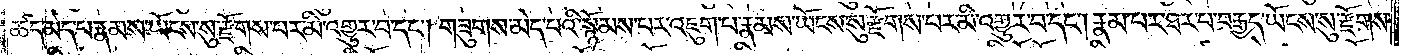ཚད་མེད་པ་རྣམས་ཡོངས་སུ་རྫོགས་པར་མི་འགྱུར་བ་དང༌། གཟུགས་མེད་པའི་སྙོམས་པར་འཇུག་པ་རྣམས་ཡོངས་སུ་རྫོགས་པར་མི་འགྱུར་བ་དང༌། རྣམ་པར་ཐར་པ་བརྒྱད་ཡོངས་སུ་རྫོགས་
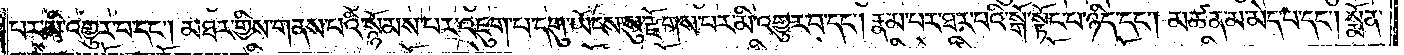པར་མི་འགྱུར་བ་དང༌། མཐར་གྱིས་གནས་པའི་སྙོམས་པར་འཇུག་པ་དགུ་ཡོངས་སུ་རྫོགས་པར་མི་འགྱུར་བ་དང༌། རྣམ་པར་ཐར་པའི་སྒོ་སྟོང་པ་ཉིད་དང༌། མཚན་མ་མེད་པ་དང༌། སྨོན་
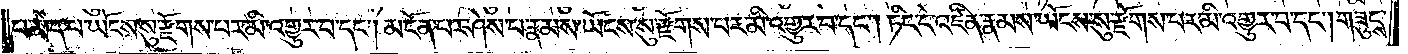པ་མེད་པ་ཡོངས་སུ་རྫོགས་པར་མི་འགྱུར་བ་དང༌། མངོན་པར་ཤེས་པ་རྣམས་ཡོངས་སུ་རྫོགས་པར་མི་འགྱུར་བ་དང༌། ཏིང་ངེ་འཛིན་རྣམས་ཡོངས་སུ་རྫོགས་པར་མི་འགྱུར་བ་དང༌། གཟུངས་
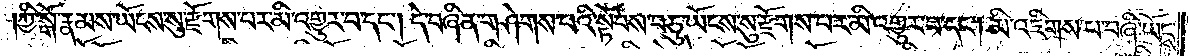ཀྱི་སྒོ་རྣམས་ཡོངས་སུ་རྫོགས་པར་མི་འགྱུར་བ་དང༌། དེ་བཞིན་གཤེགས་པའི་སྟོབས་བཅུ་ཡོངས་སུ་རྫོགས་པར་མི་འགྱུར་བ་དང༌། མི་འཇིགས་པ་བཞི་ཡོངས་
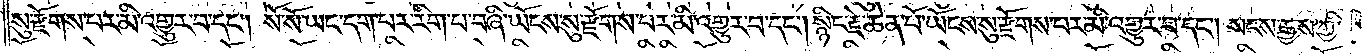སུ་རྫོགས་པར་མི་འགྱུར་བ་དང༌། སོ་སོ་ཡང་དག་པར་རིག་པ་བཞི་ཡོངས་སུ་རྫོགས་པར་མི་འགྱུར་བ་དང༌། སྙིང་རྗེ་ཆེན་པོ་ཡོངས་སུ་རྫོགས་པར་མི་འགྱུར་བ་དང༌། སངས་རྒྱས་ཀྱི་
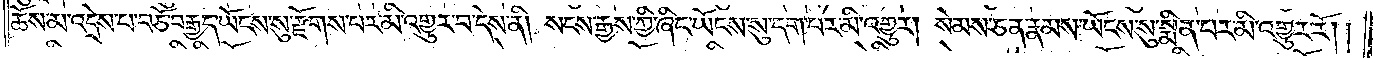ཆོས་མ་འདྲེས་པ་བཅོ་བརྒྱད་ཡོངས་སུ་རྫོགས་པར་མི་འགྱུར་བ་དེས་ནི། སངས་རྒྱས་ཀྱི་ཞིང་ཡོངས་སུ་དག་པར་མི་འགྱུར། སེམས་ཅན་རྣམས་ཡོངས་སུ་སྨིན་པར་མི་འགྱུར་རོ། །
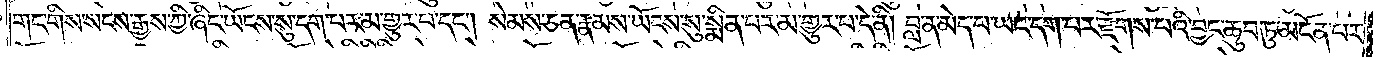གང་གིས་སངས་རྒྱས་ཀྱི་ཞིང་ཡོངས་སུ་དག་པར་མ་གྱུར་པ་དང༌། སེམས་ཅན་རྣམས་ཡོངས་སུ་སྨིན་པར་མ་གྱུར་པ་དེ་ནི། བླ་ན་མེད་པ་ཡང་དག་པར་རྫོགས་པའི་བྱང་ཆུབ་ཏུ་མངོན་པར་
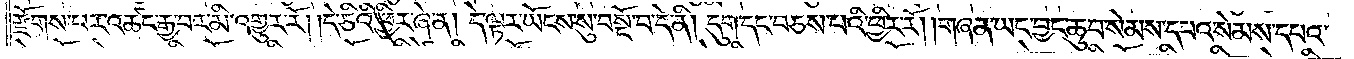རྫོགས་པར་འཚང་རྒྱ་བར་མི་འགྱུར་རོ། །དེ་ཅིའི་ཕྱིར་ཞེ་ན། དེ་ལྟར་ཡོངས་སུ་བསྔོ་བ་དེ་ནི། དུག་དང་བཅས་པའི་ཕྱིར་རོ། །གཞན་ཡང་བྱང་ཆུབ་སེམས་དཔའ་སེམས་དཔའ་
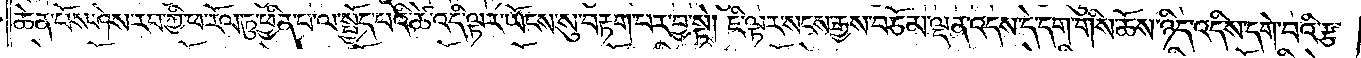ཆེན་པོས་ཤེས་རབ་ཀྱི་ཕ་རོལ་ཏུ་ཕྱིན་པ་ལ་སྤྱོད་པའི་ཚེ་འདི་ལྟར་ཡོངས་སུ་བརྟག་པར་བྱ་སྟེ། ཇི་ལྟར་སངས་རྒྱས་བཅོམ་ལྡན་འདས་དེ་དག་གིས་ཆོས་ཉིད་འདིས་དགེ་བའི་རྩ་
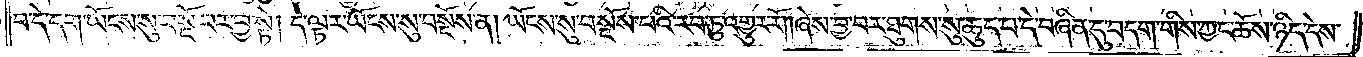བ་དེ་དག་ཡོངས་སུ་བསྔོ་བར་བྱ་སྟེ། དེ་ལྟར་ཡོངས་སུ་བསྔོས་ན། ཡོངས་སུ་བསྔོས་པའི་རབ་ཏུ་འགྱུར་རོ། །ཞེས་བྱ་བར་ཐུགས་སུ་ཆུད་པ་དེ་བཞིན་དུ་བདག་གིས་ཀྱང་ཆོས་ཉིད་དེས་
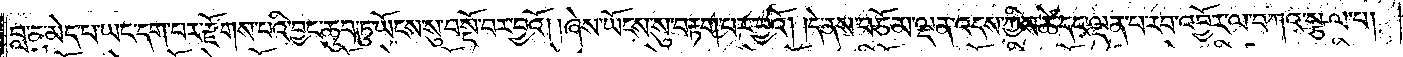བླ་ན་མེད་པ་ཡང་དག་པར་རྫོགས་པའི་བྱང་ཆུབ་ཏུ་ཡོངས་སུ་བསྔོ་བར་བྱའོ། །ཞེས་ཡོངས་སུ་བརྟག་པར་བྱའོ། །དེ་ནས་བཅོམ་ལྡན་འདས་ཀྱིས་ཚེ་དང་ལྡན་པ་རབ་འབྱོར་ལ་བཀའ་སྩལ་པ།
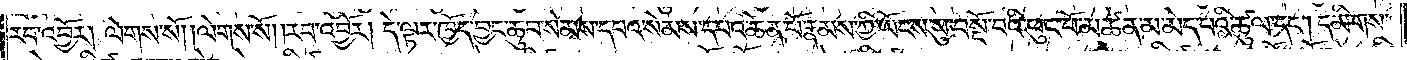རབ་འབྱོར། ལེགས་སོ། ལེགས་སོ། །རབ་འབྱོར། དེ་ལྟར་ཁྱོད་བྱང་ཆུབ་སེམས་དཔའ་སེམས་དཔའ་ཆེན་པོ་རྣམས་ཀྱི་ཡོངས་སུ་བསྔོ་བའི་ཕུང་པོ་མཚན་མ་མེད་པའི་ཚུལ་དང༌། དམིགས་
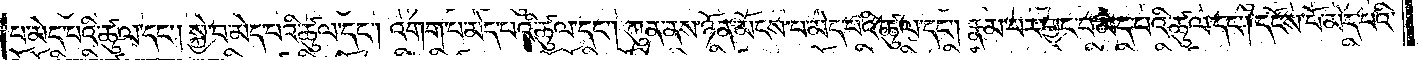པ་མེད་པའི་ཚུལ་དང༌། སྐྱེ་བ་མེད་པའི་ཚུལ་དང༌། འགག་པ་མེད་པའི་ཚུལ་དང༌། ཀུན་ནས་ཉོན་མོངས་པ་མེད་པའི་ཚུལ་དང༌། རྣམ་པར་བྱང་བ་མེད་པའི་ཚུལ་དང༌། དངོས་པོ་མེད་པའི་
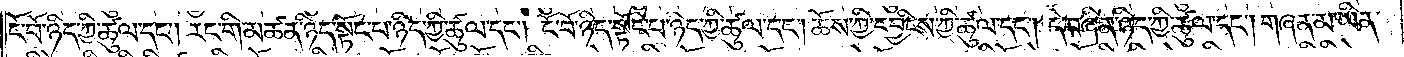ངོ་བོ་ཉིད་ཀྱི་ཚུལ་དང༌། རང་གི་མཚན་ཉིད་སྟོང་པ་ཉིད་ཀྱི་ཚུལ་དང༌། ངོ་བོ་ཉིད་སྟོང་པ་ཉིད་ཀྱི་ཚུལ་དང༌། ཆོས་ཀྱི་དབྱིངས་ཀྱི་ཚུལ་དང༌། དེ་བཞིན་ཉིད་ཀྱི་ཚུལ་དང༌། གཞན་མ་ཡིན་
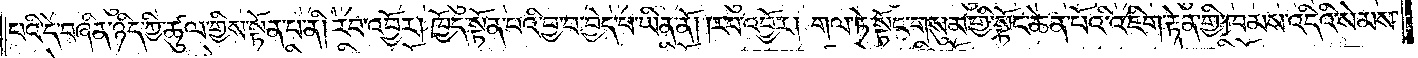པའི་དེ་བཞིན་ཉིད་ཀྱི་ཚུལ་གྱིས་སྟོན་པ་ནི། རབ་འབྱོར། ཁྱོད་སྟོན་པའི་བྱ་བ་བྱེད་པ་ཡིན་ནོ། །རབ་འབྱོར། གལ་ཏེ་སྟོང་གསུམ་གྱི་སྟོང་ཆེན་པོའི་འཇིག་རྟེན་གྱི་ཁམས་འདིའི་སེམས་
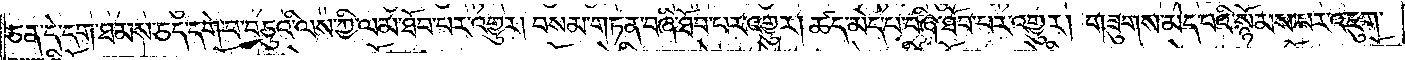ཅན་དེ་དག་ཐམས་ཅད་དགེ་བ་བཅུའི་ལས་ཀྱི་ལམ་ཐོབ་པར་འགྱུར། བསམ་གཏན་བཞི་ཐོབ་པར་འགྱུར། ཚད་མེད་པ་བཞི་ཐོབ་པར་འགྱུར། གཟུགས་མེད་པའི་སྙོམས་པར་འཇུག་
